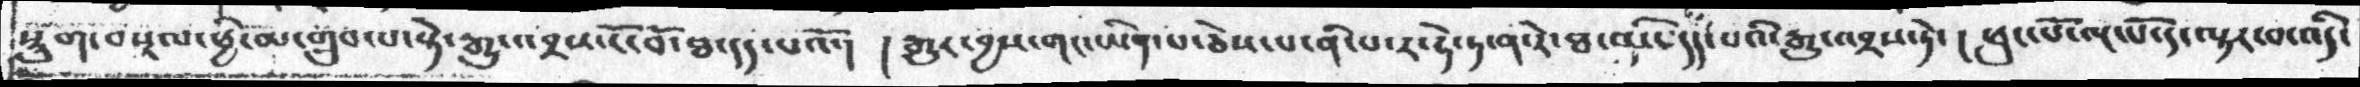སྡུག་བསྔལ་ཕྱི་མ་གྲུབ་པ་སྟེ་རྒྱུ་འབྲས་ངོ་བོ་ཐ་དད་པའོ་། །རྒྱུར་བྱས་གང་ཡིན་པ་ཅེས་པ་ནི་པ་ར་ཧེ་ཏ་ན་རེ་ཐ་མི་དད་པའི་རྒྱུ་འབྲས་ཏེ་། ཕུང་པོ་ལྔ་པོ་ད་ལྟར་བ་འདི་
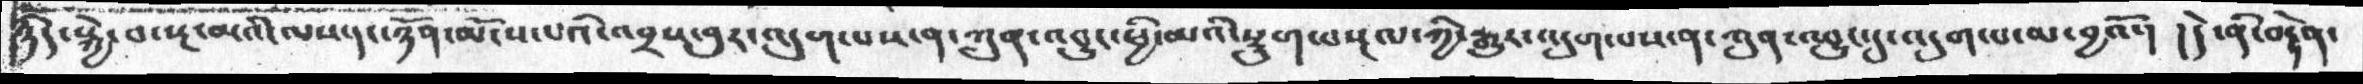ཉིད་སྐྱེ་བ་སྔ་མའི་ལས་དང་ཉོན་མོངས་པའི་འབྲས་བུར་འདུག་པས་ན་ཀུན་འབྱུང་ཕྱི་མའི་སྡུག་བསྔལ་ཀྱི་རྒྱུར་འདུག་པས་ན་ཀུན་འབྱུང་དུ་འདུག་པ་མ་བྱའོ་། །དེ་ནི་བརྟེན་
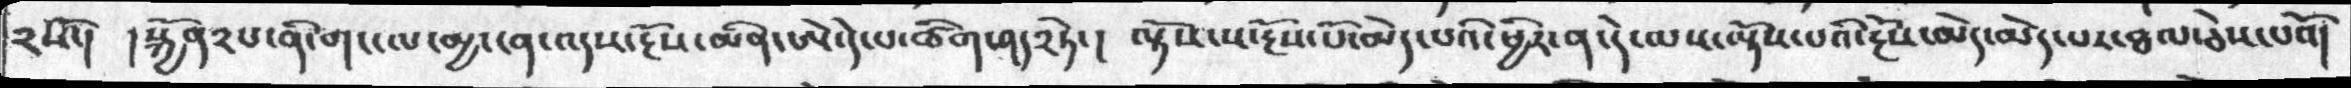༢སོ་།  །སྐྱོན༢པ་ནི་གང་ལ་མྱ་ངན་འདས་རྔོས་མིན་ཨེ་དེ་པ་ཚིག་ཤད༢ཏེ་། ལྟོས་ས་རྔོས་པོ་མེད་པའི་ཕྱིར་ན་དེ་ལས་ལྟོས་པའི་རྔོས་མེད་མེད་པར་ཐལ་ཅེས་པའོ།
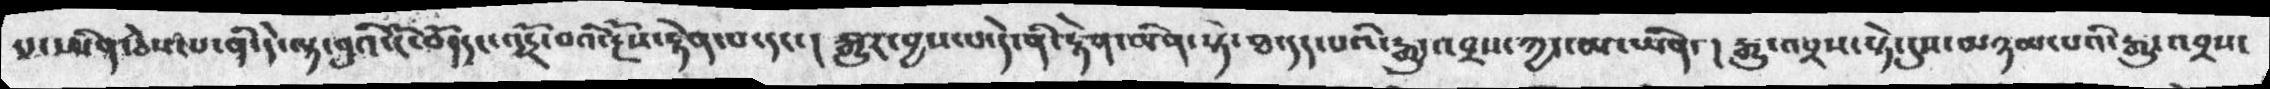པ་ཡིན་ཅེས་པ་ནི་དེ་ལྟ་བུའི་ངོ་བོ་དང་འདྲོ་བའི་རྔོས་རྟེན་པ་དང་། རྒྱུར་བྱས་པ་དེ་ནི་རྟེན་ཡིན་སྟེ་ཐ་དད་པའི་རྒྱུ་འབྲས་ཀྱང་མ་ཡིན་། རྒྱུ་འབྲས་སྟེ་དུས་མཉམ་པའི་རྒྱུ་འབྲས་
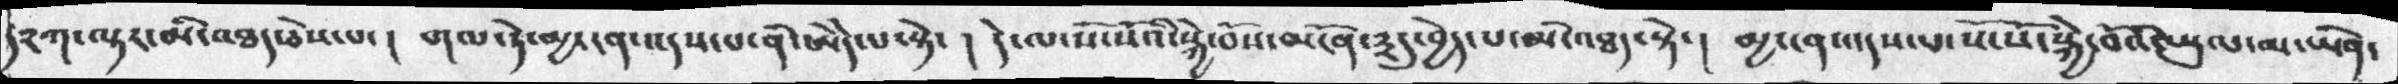།༢ཀ་ལྟར་མི་འཐད་ཅེས་པ་།  གལ་ཏེ་མྱ་ངན་འདས་པ་ནི་ཨེདེ་པ་སྟེ་།  དེ་ལ་སོ་སོའི་སྐྱེ་བོས་མངོན་༣དུ་བྱེད་པ་མི་འཐད་སྟེ་། མྱ་ངན་འདས་པ་སོ་སོ་སྐྱེ་བོའི་ཡུལ་མ་ཡིན་
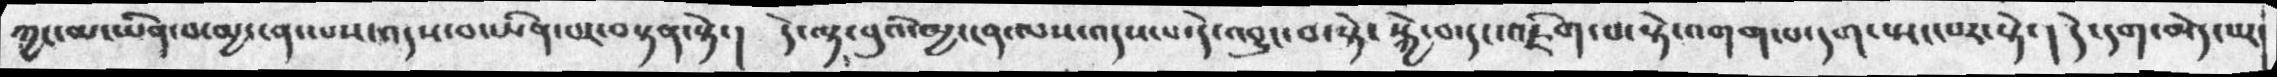ཀྱང་མ་ཡིན་པ་མྱ་ངན་ལས་འདས་བ་ཡིན་པར་བསྟན་སྟེ་། དེ་ལྟ་བུའི་མྱ་ངན་ལས་འདས་པ་དེ་འབྱུང་བ་སྟེ་སྐྱེ་བ་དང་འཇིག་པ་སྟེ་འགག་པ་དག་སྤང་པར་སྟེ་། དེ་དག་མེད་པར་
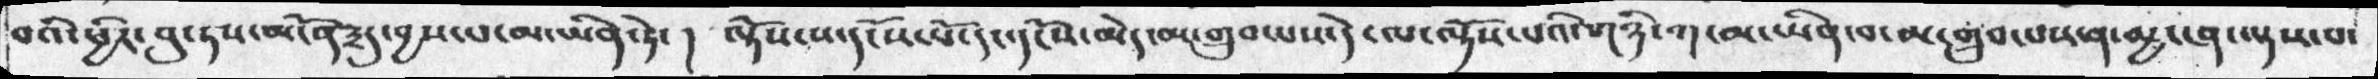བའི་ཕྱིར་བུ་ཏས་མངོན༣དུ་བྱས་པ་མ་ཡིན་ཏེ་། ལྟོས་པ་དངོས་པོ་དང་དངོས་མེད་མ་གྲུབ་པས་དེ་ལ་ལྟོས་པའི་གཉི་ཀ་མ་ཡིན་བ་མ་གྲུབ་པས་ན་མྱ་ངན་ལྟས་པ་
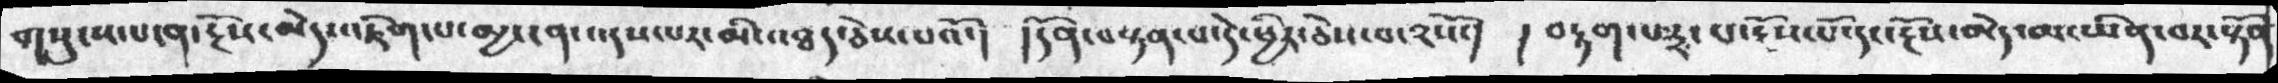གསུངས་ན་རྔོས་མེད་འཇིག་པ་མྱ་ངན་འདས་པར་མི་འཐད་ཅེས་པའོ་།  །དོན་བསྟན་པ་དེ་ཕྱིར་ཅེས་པ་༢སོ་།  །བརྟག་པ༣་པ་རྔོས་པོ་དང་རྔོས་མེད་མ་ཡིན་བར་སྟོན
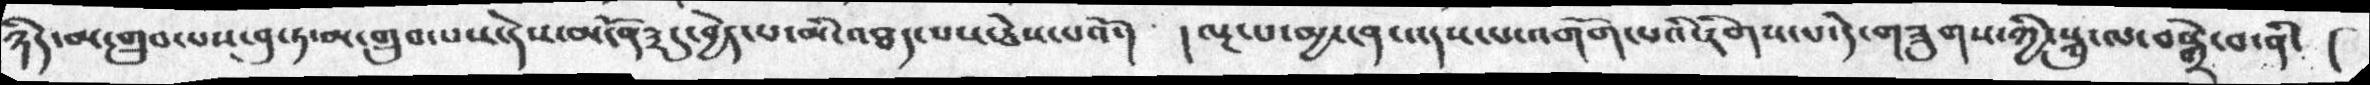ཉིད་མ་གྲུབ་པས་བུ་ཏ་མ་གྲུབ་པས་དེས་མངོན༣དུ་བྱེད་པ་མི་འཐད་པས་ཅེས་པའོ་།  །ལྔ་པ་མྱ་ངན་འདས་པ་འགོག་པའི་རིགས་པ་དེ་གཟུགས་ཀྱི་སྐུ་ལ་བསྒྲེ་བ་ནི་།
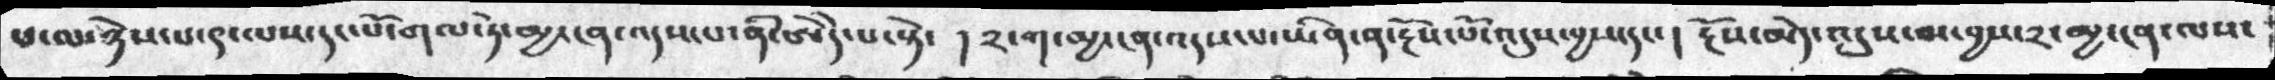པ་ལ་ཉེས་པ་༩་པས་དང་པོ་གལ་ཏེ་མྱ་ངན་འདས་པ་ནི་ཨེདེ་པ་སྟེ་། ༢་ག་མྱ་ངན་འདས་པ་ཡིན་ན་རྔོས་པོ་འདུས་བྱས་དང་། རྔོས་མེད་འདུས་མ་བྱས་༢་མྱ་ངན་ལས་
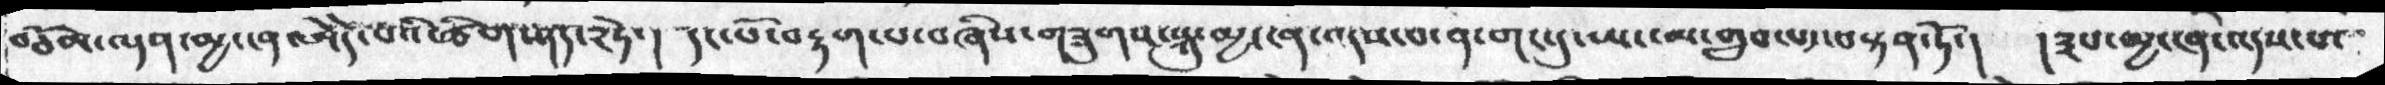བཅོམ་ལྡན་མྱ་ངན་ཨེདེ་པའི་ཚིག་ཤད་༢ཏེ་། དང་པོ་བརྟག་པ་བཞིས་གཟུགས་སྐུ་མྱ་ངན་འདས་པ་ན་གང་དུ་ཡང་མ་གྲུབ་པ་བསྟན་ཏོ་། །༣པ་མྱ་ངན་འདས་པ་
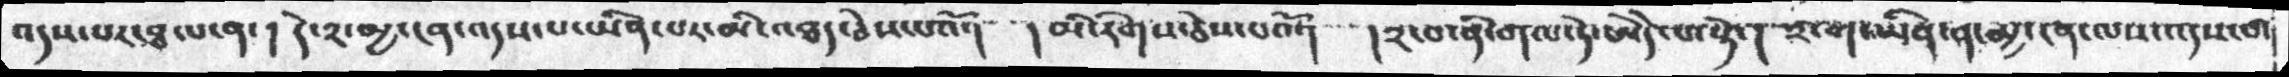འདས་པར་ཐལ་ན་། དེ་༢་མྱ་ངན་འདས་པ་ཡིན་པར་མི་འཐད་ཅེས་པའོ་། །མི་རིགས་ཅེས་པའོ་།  །༢་བ་ནི་གལ་ཏེ་ཨེདེ་པ་སྟེ་། ༢་ག་ཡིན་ན་མྱ་ངན་ལས་འདས་པ་
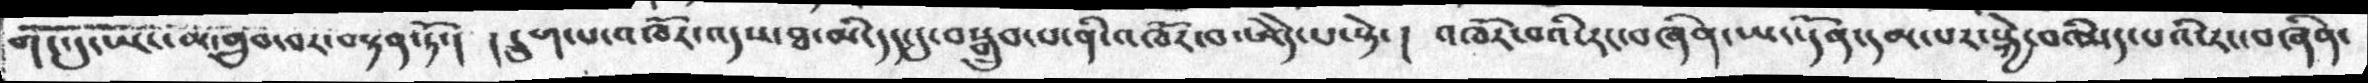གོང་དུ་ཡང་མ་གྲུབ་བར་བསྟན་ཏོ་། །དྲུག་པ་འཁོར་འདས་ཐ་མི་དད་དུ་བསྒྲུབ་པ་ནི་འཁོར་བ་ཨེདེ་པ་སྟེ་། འཁོར་བའི་རང་བཞིན་ཡང་དོན་དམ་པར་སྐྱེ་བ་མིད་པའི་རང་བཞིན་
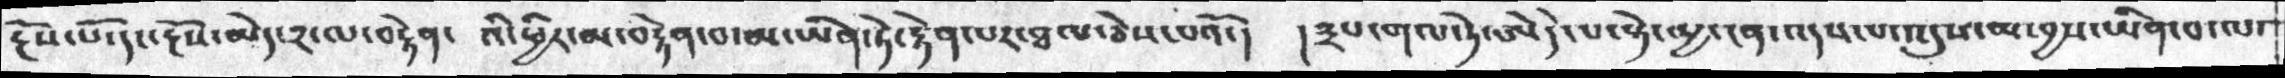རྔོས་པོ་དང་རྔོས་མེད་༢་ལ་བརྟེན་ འི་ཕྱིར་མ་བརྟེན་བ་མ་ཡིན་ཏེ་རྟེན་པར་ཐལ་ཅེས་པའོ་།  །༣པ་གལ་ཏེ་ཨེདེ་པ་སྟེ་མྱ་ངན་འདས་པ་འདས་མ་བྱས་ཡིན་པ་ལ་
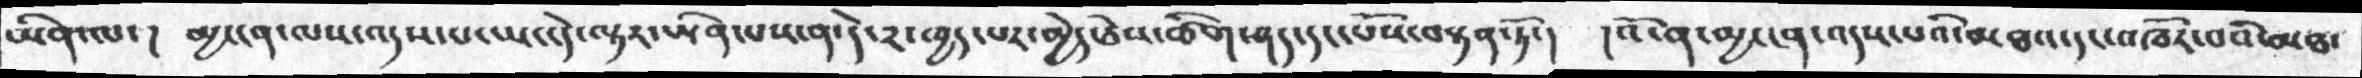ཡིན་ལ་། མྱ་ངན་ལས་འདས་པ་ཡང་དེ་ལྟར་ཡིན་པས་ན་དེ་༢་ཁྱད་པར་མྱེད་ཅེས་ཚིག་ཤད་དང་པོས་བསྟན་ཏོ་།  །འོ་ན་མྱ་ངན་འདས་པའི་མཐའ་དང་འཁོར་བའི་མཐ་
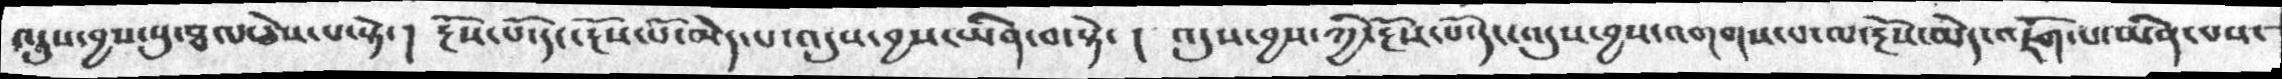འདུས་བྱས་སུ་ཐལ་ཅེས་པ་སྟེ་།  རྔོས་པོ་དང་རྔོས་པོ་མེད་པ་འདུས་བྱས་ཡིན་བ་སྟེ་།  འདུས་བྱས་ཀྱི་རྔོས་པོ་དང་འདུས་བྱས་འགགས་པ་ལ་རྔོས་མེད་འཇོག་པ་ཡིན་པས་
